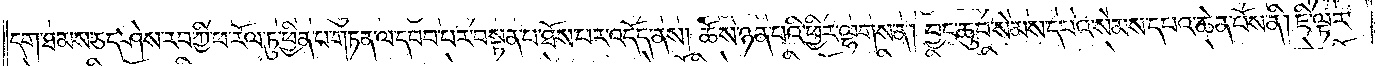དག་ཐམས་ཅད་ཤེས་རབ་ཀྱི་ཕ་རོལ་ཏུ་ཕྱིན་པ་གཏན་ལ་དབབ་པར་བསྟན་པ་ཐོས་པར་འདོད་ནས། ཆོས་ཉན་པའི་ཕྱིར་ལྷགས་ན། བྱང་ཆུབ་སེམས་དཔའ་སེམས་དཔའ་ཆེན་པོས་ནི། ཇི་ལྟར་
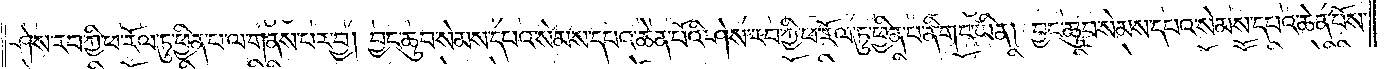ཤེས་རབ་ཀྱི་ཕ་རོལ་ཏུ་ཕྱིན་པ་ལ་གནས་པར་བྱ། བྱང་ཆུབ་སེམས་དཔའ་སེམས་དཔའ་ཆེན་པོའི་ཤེས་རབ་ཀྱི་ཕ་རོལ་ཏུ་ཕྱིན་པ་ནི་གང་ཡིན། བྱང་ཆུབ་སེམས་དཔའ་སེམས་དཔའ་ཆེན་པོས་
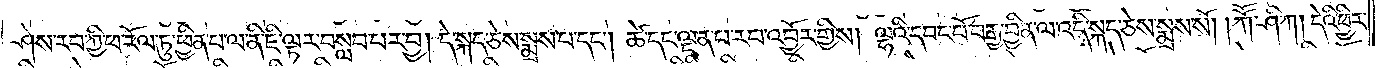ཤེས་རབ་ཀྱི་ཕ་རོལ་ཏུ་ཕྱིན་པ་ལ་ནི་ཇི་ལྟར་བསླབ་པར་བྱ། དེ་སྐད་ཅེས་སྨྲས་པ་དང༌། ཚེ་དང་ལྡན་པ་རབ་འབྱོར་གྱིས། ལྷའི་དབང་པོ་བརྒྱ་བྱིན་ལ་འདི་སྐད་ཅེས་སྨྲས་སོ། །ཀཽ་ཤི་ཀ། དེའི་ཕྱིར་
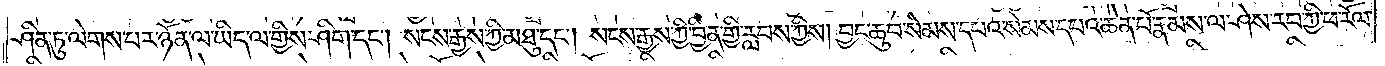ཤིན་ཏུ་ལེགས་པར་ཉོན་ལ་ཡིད་ལ་གྱིས་ཤིག་དང༌། སངས་རྒྱས་ཀྱི་མཐུ་དང༌། སངས་རྒྱས་ཀྱི་བྱིན་གྱི་རླབས་ཀྱིས། བྱང་ཆུབ་སེམས་དཔའ་སེམས་དཔའ་ཆེན་པོ་རྣམས་ལ་ཤེས་རབ་ཀྱི་ཕ་རོལ་
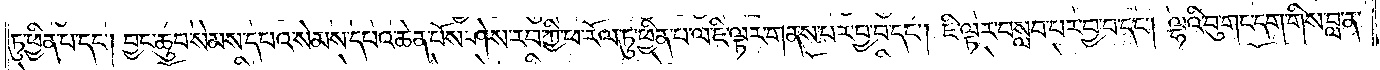ཏུ་ཕྱིན་པ་དང༌། བྱང་ཆུབ་སེམས་དཔའ་སེམས་དཔའ་ཆེན་པོས་ཤེས་རབ་ཀྱི་ཕ་རོལ་ཏུ་ཕྱིན་པ་ལ་ཇི་ལྟར་གནས་པར་བྱ་བ་དང༌། ཇི་ལྟར་བསླབ་པར་བྱ་བ་དང༌། ལྷའི་བུ་གང་དག་གིས་བླ་ན་
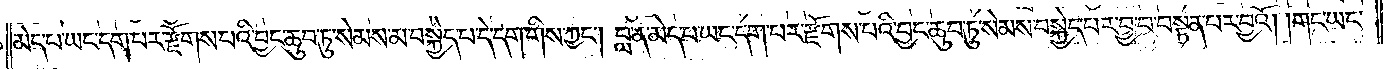མེད་པ་ཡང་དག་པར་རྫོགས་པའི་བྱང་ཆུབ་ཏུ་སེམས་མ་བསྐྱེད་པ་དེ་དག་གིས་ཀྱང༌། བླ་ན་མེད་པ་ཡང་དག་པར་རྫོགས་པའི་བྱང་ཆུབ་ཏུ་སེམས་བསྐྱེད་པར་བྱ་བ་བསྟན་པར་བྱའོ། །གང་ཡང་
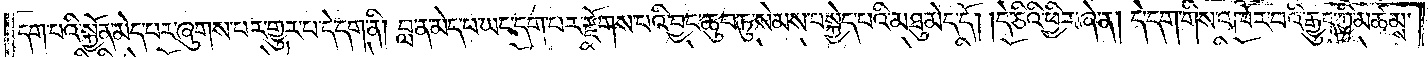དག་པའི་སྐྱོན་མེད་པར་ཞུགས་པར་གྱུར་པ་དེ་དག་ནི། བླ་ན་མེད་པ་ཡང་དག་པར་རྫོགས་པའི་བྱང་ཆུབ་ཏུ་སེམས་བསྐྱེད་པའི་མཐུ་མེད་དེ། དེ་ཅིའི་ཕྱིར་ཞེ་ན། དེ་དག་གིས་འཁོར་བའི་རྒྱུད་ཀྱི་མཚམས་
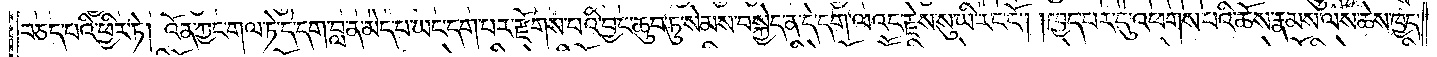བཅད་པའི་ཕྱིར་ཏེ། འོན་ཀྱང་གལ་ཏེ་དེ་དག་བླ་ན་མེད་པ་ཡང་དག་པར་རྫོགས་པའི་བྱང་ཆུབ་ཏུ་སེམས་བསྐྱེད་ན་དེ་དག་ལའང་རྗེས་སུ་ཡི་རང་ངོ༌། །ཁྱད་པར་དུ་འཕགས་པའི་ཆོས་རྣམས་ལས་ཆེས་ཁྱད་
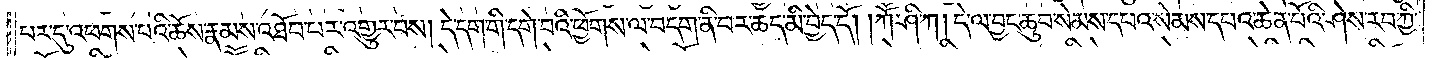པར་དུ་འཕགས་པའི་ཆོས་རྣམས་འཐོབ་པར་འགྱུར་བས། དེ་དག་གི་དགེ་བའི་ཕྱོགས་ལ་བདག་ནི་བར་ཆད་མི་བྱེད་དོ། །ཀཽ་ཤི་ཀ། དེ་ལ་བྱང་ཆུབ་སེམས་དཔའ་སེམས་དཔའ་ཆེན་པོའི་ཤེས་རབ་ཀྱི་
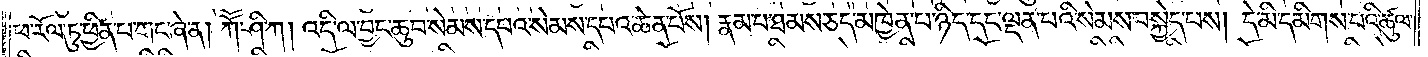ཕ་རོལ་ཏུ་ཕྱིན་པ་གང་ཞེ་ན། ཀཽ་ཤི་ཀ། འདི་ལ་བྱང་ཆུབ་སེམས་དཔའ་སེམས་དཔའ་ཆེན་པོས། རྣམ་པ་ཐམས་ཅད་མཁྱེན་པ་ཉིད་དང་ལྡན་པའི་སེམས་བསྐྱེད་པས། དེ་མི་དམིགས་པའི་ཚུལ་
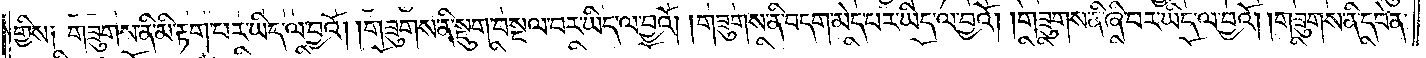གྱིས༏ གཟུགས་ནི་མི་རྟག་པར་ཡིད་ལ་བྱའོ། །གཟུགས་ནི་སྡུག་བསྔལ་བར་ཡིད་ལ་བྱའོ། །གཟུགས་ནི་བདག་མེད་པར་ཡིད་ལ་བྱའོ། །གཟུགས་ནི་ཞི་བར་ཡིད་ལ་བྱའོ། །གཟུགས་ནི་དབེན་
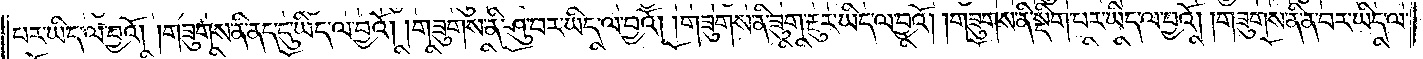པར་ཡིད་ལ་བྱའོ། །གཟུགས་ནི་ནད་དུ་ཡིད་ལ་བྱའོ། །གཟུགས་ནི་ཤུ་བར་ཡིད་ལ་བྱའོ། །གཟུགས་ནི་ཟུག་རྔུར་ཡིད་ལ་བྱའོ། །གཟུགས་ནི་སྡིག་པར་ཡིད་ལ་བྱའོ། །གཟུགས་ནི་ན་བར་ཡིད་ལ་
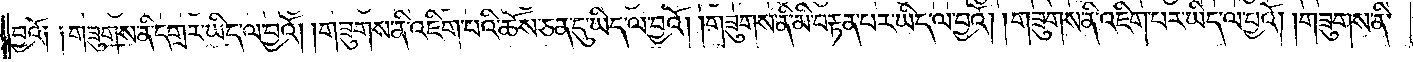བྱའོ༏ ༏གཟུགས་ནི་དགྲར་ཡིད་ལ་བྱའོ། །གཟུགས་ནི་འཇིག་པའི་ཆོས་ཅན་དུ་ཡིད་ལ་བྱའོ། །གཟུགས་ནི་མི་བརྟན་པར་ཡིད་ལ་བྱའོ། །གཟུགས་ནི་འཇིག་པར་ཡིད་ལ་བྱའོ། །གཟུགས་ནི་
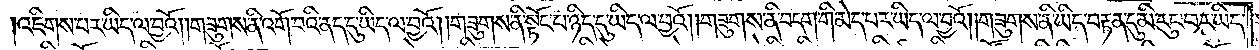འཇིགས་པར་ཡིད་ལ་བྱའོ། །གཟུགས་ནི་འགོ་བའི་ནད་དུ་ཡིད་ལ་བྱའོ། །གཟུགས་ནི་སྟོང་པ་ཉིད་དུ་ཡིད་ལ་བྱའོ། །གཟུགས་ནི་བདག་གི་མེད་པར་ཡིད་ལ་བྱའོ། །གཟུགས་ནི་ཡིད་བརྟན་དུ་མི་རུང་བར་ཡིད་
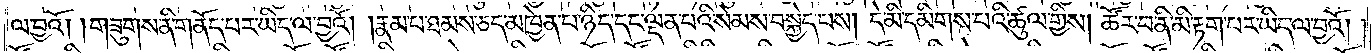ལ་བྱའོ། །གཟུགས་ནི་གནོད་པར་ཡིད་ལ་བྱའོ། རྣམ་པ་ཐམས་ཅད་མཁྱེན་པ་ཉིད་དང་ལྡན་པའི་སེམས་བསྐྱེད་པས། དེ་མི་དམིགས་པའི་ཚུལ་གྱིས། ཚོར་བ་ནི་མི་རྟག་པར་ཡིད་ལ་བྱའོ།
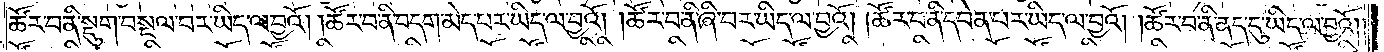ཚོར་བ་ནི་སྡུག་བསྔལ་བར་ཡིད་ལ་བྱའོ། །ཚོར་བ་ནི་བདག་མེད་པར་ཡིད་ལ་བྱའོ། །ཚོར་བ་ནི་ཞི་བར་ཡིད་ལ་བྱའོ། །ཚོར་བ་ནི་དབེན་པར་ཡིད་ལ་བྱའོ། །ཚོར་བ་ནི་ནད་དུ་ཡིད་ལ་བྱའོ།
